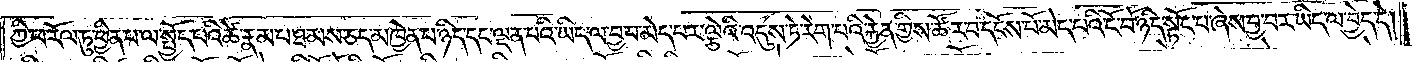ཀྱི་ཕ་རོལ་ཏུ་ཕྱིན་པ་ལ་སྤྱོད་པའི་ཚེ་རྣམ་པ་ཐམས་ཅད་མཁྱེན་པ་ཉིད་དང་ལྡན་པའི་ཡིད་ལ་བྱ་བ་མེད་པར་ལྕེའི་འདུས་ཏེ་རེག་པའི་རྐྱེན་གྱིས་ཚོར་བ་དངོས་པོ་མེད་པའི་ངོ་བོ་ཉིད་སྟོང་པ་ཞེས་བྱ་བར་ཡིད་ལ་བྱེད་དེ།
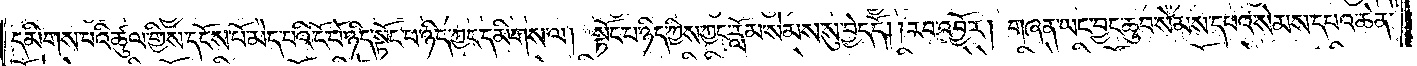དམིགས་པའི་ཚུལ་གྱིས་དངོས་པོ་མེད་པའི་ངོ་བོ་ཉིད་སྟོང་པ་ཉིད་ཀྱང་དམིགས་ལ། སྟོང་པ་ཉིད་ཀྱིས་ཀྱང་རློམ་སེམས་སུ་བྱེད་དོ། །རབ་འབྱོར། གཞན་ཡང་བྱང་ཆུབ་སེམས་དཔའ་སེམས་དཔའ་ཆེན་
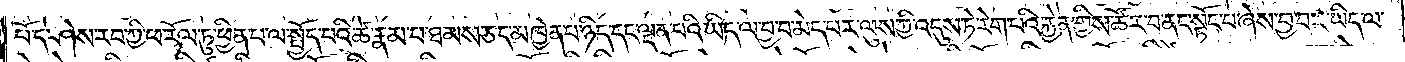པོ་དེ་ཤེས་རབ་ཀྱི་ཕ་རོལ་ཏུ་ཕྱིན་པ་ལ་སྤྱོད་པའི་ཚེ་རྣམ་པ་ཐམས་ཅད་མཁྱེན་པ་ཉིད་དང་ལྡན་པའི་ཡིད་ལ་བྱ་བ་མེད་པར་ལུས་ཀྱི་འདུས་ཏེ་རེག་པའི་རྐྱེན་གྱིས་ཚོར་བ་ནང་སྟོང་པ་ཞེས་བྱ་བར་ཡིད་ལ་
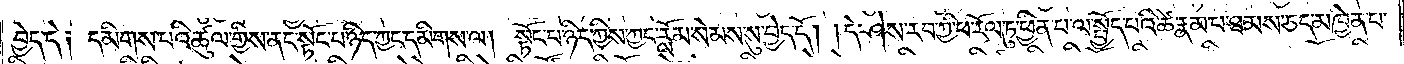བྱེད་དེ༑ དམིགས་པའི་ཚུལ་གྱིས་ནང་སྟོང་པ་ཉིད་ཀྱང་དམིགས་ལ། སྟོང་པ་ཉིད་ཀྱིས་ཀྱང་རློམ་སེམས་སུ་བྱེད་དོ། །དེ་ཤེས་རབ་ཀྱི་ཕ་རོལ་ཏུ་ཕྱིན་པ་ལ་སྤྱོད་པའི་ཚེ་རྣམ་པ་ཐམས་ཅད་མཁྱེན་པ་
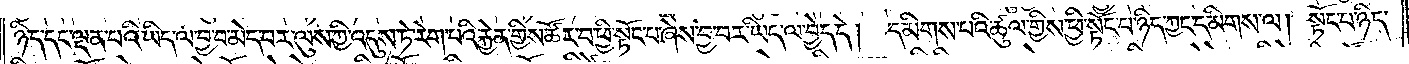ཉིད་དང་ལྡན་པའི་ཡིད་ལ་བྱ་བ་མེད་པར་ལུས་ཀྱི་འདུས་ཏེ་རེག་པའི་རྐྱེན་གྱིས་ཚོར་བ་ཕྱི་སྟོང་པ་ཞེས་བྱ་བར་ཡིད་ལ་བྱེད་དེ། དམིགས་པའི་ཚུལ་གྱིས་ཕྱི་སྟོང་པ་ཉིད་ཀྱང་དམིགས་ལ། སྟོང་པ་ཉིད་
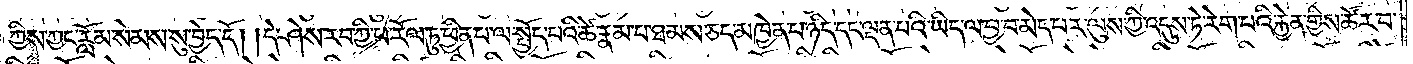ཀྱིས་ཀྱང་རློམ་སེམས་སུ་བྱེད་དོ། །དེ་ཤེས་རབ་ཀྱི་ཕ་རོལ་ཏུ་ཕྱིན་པ་ལ་སྤྱོད་པའི་ཚེ་རྣམ་པ་ཐམས་ཅད་མཁྱེན་པ་ཉིད་དང་ལྡན་པའི་ཡིད་ལ་བྱ་བ་མེད་པར་ལུས་ཀྱི་འདུས་ཏེ་རེག་པའི་རྐྱེན་གྱིས་ཚོར་བ་
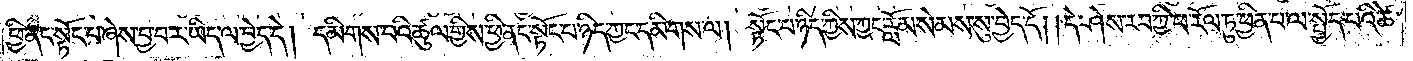ཕྱི་ནང་སྟོང་པ་ཞེས་བྱ་བར་ཡིད་ལ་བྱེད་དེ། དམིགས་པའི་ཚུལ་གྱིས་ཕྱི་ནང་སྟོང་པ་ཉིད་ཀྱང་དམིགས་ལ། སྟོང་པ་ཉིད་ཀྱིས་ཀྱང་རློམ་སེམས་སུ་བྱེད་དོ། །དེ་ཤེས་རབ་ཀྱི་ཕ་རོལ་ཏུ་ཕྱིན་པ་ལ་སྤྱོད་པའི་ཚེ་
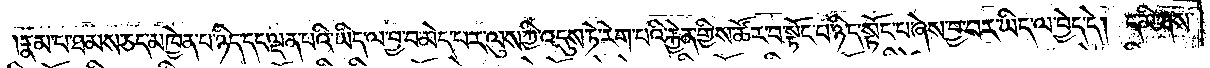རྣམ་པ་ཐམས་ཅད་མཁྱེན་པ་ཉིད་དང་ལྡན་པའི་ཡིད་ལ་བྱ་བ་མེད་པར་ལུས་ཀྱི་འདུས་ཏེ་རེག་པའི་རྐྱེན་གྱིས་ཚོར་བ་སྟོང་པ་ཉིད་སྟོང་པ་ཞེས་བྱ་བར་ཡིད་ལ་བྱེད་དེ། དམིགས་
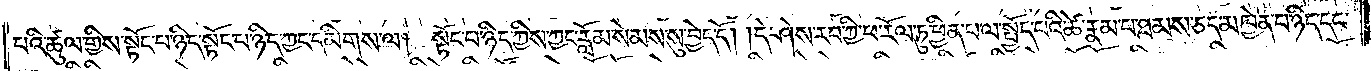པའི་ཚུལ་གྱིས་སྟོང་པ་ཉིད་སྟོང་པ་ཉིད་ཀྱང་དམིགས་ལ། སྟོང་པ་ཉིད་ཀྱིས་ཀྱང་རློམ་སེམས་སུ་བྱེད་དོ། །དེ་ཤེས་རབ་ཀྱི་ཕ་རོལ་ཏུ་ཕྱིན་པ་ལ་སྤྱོད་པའི་ཚེ་རྣམ་པ་ཐམས་ཅད་མཁྱེན་པ་ཉིད་དང་
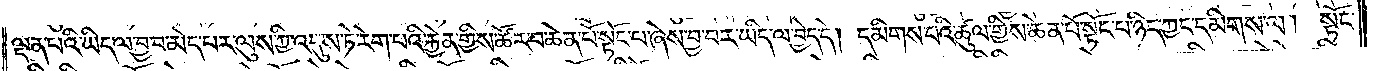ལྡན་པའི་ཡིད་ལ་བྱ་བ་མེད་པར་ལུས་ཀྱི་འདུས་ཏེ་རེག་པའི་རྐྱེན་གྱིས་ཚོར་བ་ཆེན་པོ་སྟོང་པ་ཞེས་བྱ་བར་ཡིད་ལ་བྱེད་དེ། དམིགས་པའི་ཚུལ་གྱིས་ཆེན་པོ་སྟོང་པ་ཉིད་ཀྱང་དམིགས་ལ། སྟོང་
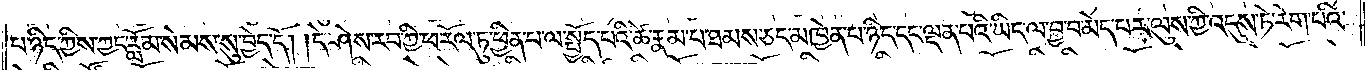པ་ཉིད་ཀྱིས་ཀྱང་རློམ་སེམས་སུ་བྱེད་དོ། །དེ་ཤེས་རབ་ཀྱི་ཕ་རོལ་ཏུ་ཕྱིན་པ་ལ་སྤྱོད་པའི་ཚེ་རྣམ་པ་ཐམས་ཅད་མཁྱེན་པ་ཉིད་དང་ལྡན་པའི་ཡིད་ལ་བྱ་བ་མེད་པར་ལུས་ཀྱིས་འདུས་ཏེ་རེག་པའི་
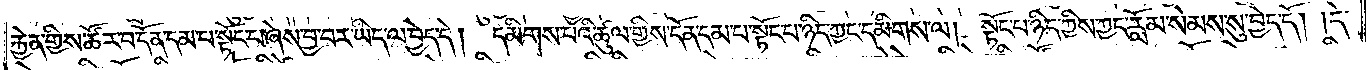རྐྱེན་གྱིས་ཚོར་བ་དོན་དམ་པ་སྟོང་པ་ཞེས་བྱ་བར་ཡིད་ལ་བྱེད་དེ། དམིགས་པའི་ཚུལ་གྱིས་དོན་དམ་པ་སྟོང་པ་ཉིད་ཀྱང་དམིགས་ལ། སྟོང་པ་ཉིད་ཀྱིས་ཀྱང་རློམ་སེམས་སུ་བྱེད་དོ། །དེ་
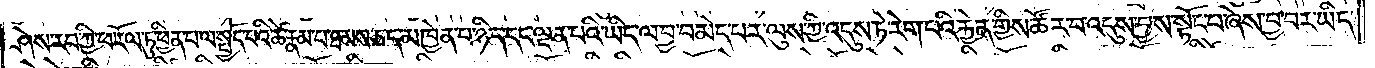ཤེས་རབ་ཀྱི་ཕ་རོལ་ཏུ་ཕྱིན་པ་ལ་སྤྱོད་པའི་ཚེ་རྣམ་པ་ཐམས་ཅད་མཁྱེན་པ་ཉིད་དང་ལྡན་པའི་ཡིད་ལ་བྱ་བ་མེད་པར་ལུས་ཀྱི་འདུས་ཏེ་རེག་པའི་རྐྱེན་གྱིས་ཚོར་བ་འདུས་བྱས་སྟོང་པ་ཞེས་བྱ་བར་ཡིད་
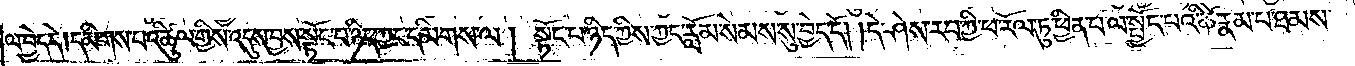ལ་བྱེད་དེ། དམིགས་པའི་ཚུལ་གྱིས་འདུས་བྱས་སྟོང་པ་ཉིད་ཀྱང་དམིགས་ལ། སྟོང་པ་ཉིད་ཀྱིས་ཀྱང་རློམ་སེམས་སུ་བྱེད་དོ། །དེ་ཤེས་རབ་ཀྱི་ཕ་རོལ་ཏུ་ཕྱིན་པ་ལ་སྤྱོད་པའི་ཚེ་རྣམ་པ་ཐམས་
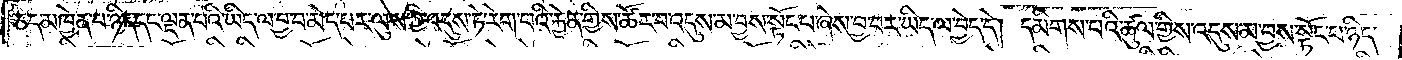ཅད་མཁྱེན་པ་ཉིད་དང་ལྡན་པའི་ཡིད་ལ་བྱ་བ་མེད་པར་ལུས་ཀྱི་འདུས་ཏེ་རེག་པའི་རྐྱེན་གྱིས་ཚོར་བ་འདུས་མ་བྱས་སྟོང་པ་ཞེས་བྱ་བར་ཡིད་ལ་བྱེད་དེ། དམིགས་པའི་ཚུལ་གྱིས་འདུས་མ་བྱས་སྟོང་པ་ཉིད་
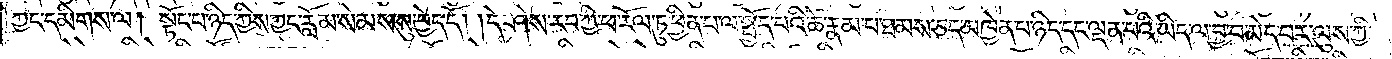ཀྱང་དམིགས་ལ། སྟོང་པ་ཉིད་ཀྱིས་ཀྱང་རློམ་སེམས་སུ་བྱེད་དོ། །དེ་ཤེས་རབ་ཀྱི་ཕ་རོལ་ཏུ་ཕྱིན་པ་ལ་སྤྱོད་པའི་ཚེ་རྣམ་པ་ཐམས་ཅད་མཁྱེན་པ་ཉིད་དང་ལྡན་པའི་ཡིད་ལ་བྱ་བ་མེད་པར་ལུས་ཀྱི་
